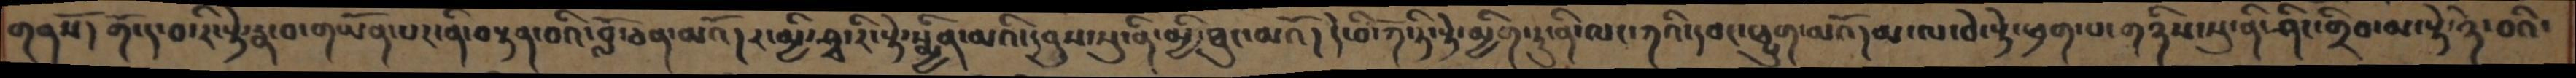གནསོ། གོ་ད་བ་རི་སྟེ་རྣ་བ་གཡོན་པར་ནི་བསྟན་བའི་བློ་ཅན་མའོ།ར་མྱི་ཤྭ་རི་སྟེ་སྨྱིན་མའི་དབུས་སུ་ནི་མྱི་ཐུང་མའོ། དེ་བི་ཀོ་ཏི་སྟེ་མྱིག་ཏུ་ནི་ལང་ཀའི་དབང་ཕྱུག་མའོ།མ་ལ་བེ་སྟེ་ཕྲག་པ་གཉིས་སུ་ནི་ཤིང་གྲིབ་མ་སྟེ་ཉེ་བའི་
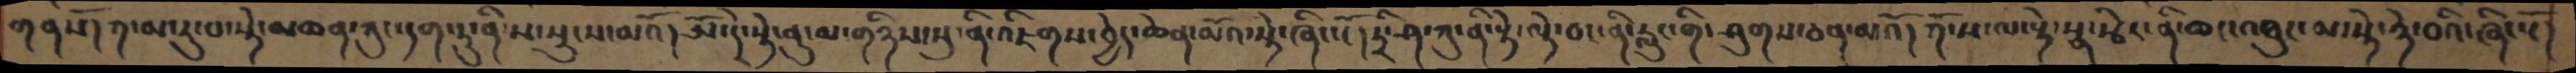གནསོ། ཀ་མ་རུ་པ་སྟེ་མཆན་ཀུང་དག་ཏུ་ནི་ས་སྲུངས་མའོ།ཨོ་དེ་སྟེ་ནུ་མ་གཉིས་སུ་ནི་འཇིགས་བྱེད་ཆེན་མོའ་སྟེ་ཞིང་ངོ། ཏྲི་ཤ་ཀུ་ནི་སྟེ་ལྟེ་བང་ནི་རླུང་གི་ཤུགས་ཅན་མའོ། ཀོ་ས་ལ་སྟེ་སྣ་རྩེར་ནི་ཆངའཐུང་མ་སྟེ་ཉེ་བའི་ཞིངསོ།
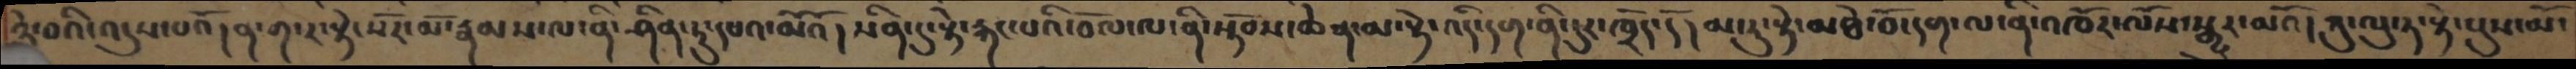ཉེ་བའི་འདུས་པའོ། ན་ག་ར་སྟེ་སོར་མོ་རྣམས་ལ་ནི་ཤིན་ཏུ་དཔའ་མོའོ། སིན་དུ་སྟེ་རྐང་པའི་བོལ་ལ་ནི་སྟོབས་ཆེན་མ་སྟེ་འདི་དག་ནི་དུར་ཁྲོད་དོ། །མ་རུ་སྟེ་མཐེ་བོ་དག་ལ་ནི་འཁོར་ལོས་སྒྱུར་མའོ། ཀུ་ལུ་ཏ་སྟེ་པུས་མོ་
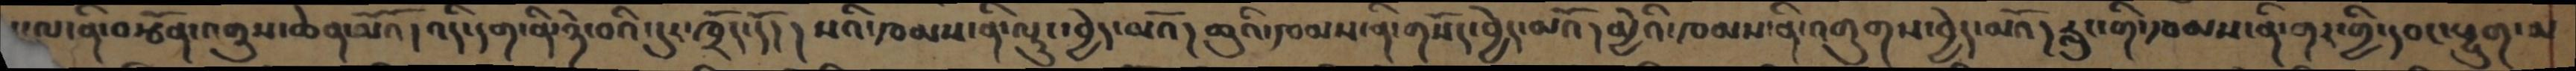ང་ལ་ནི་བརྩོན་འགྲུས་ཆེན་མོའོ། འདི་དག་ནི་ཉེ་བའི་དུར་ཁྲོད་དོ། །སའི་ཁམས་ནི་ལྟུང་བྱེད་མའོ། ཆུའི་ཁམས་ནི་གསོད་བྱེད་མའོ། མྱེའི་ཁམས་ནི་འགུགས་བྱེད་མའོ། རླུང་གི་ཁམས་ནི་གར་གྱི་དབང་ཕྱུག་མ
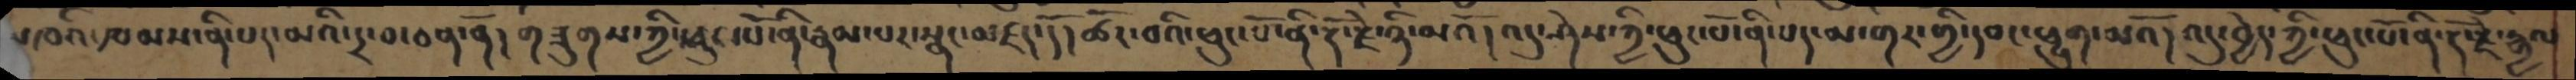མཁའི་ཁམས་ནི་པད་མའི་དྲ་བ་ཅན་ནོ། གཟུགས་ཀྱི་ཕུང་པོ་ནི་རྣམ་པར་སྣང་མཛད་དོ། ཚོར་བའི་ཕུང་པོ་ནི་རྡོ་རྗེ་ཉི་མའོ། འདུ་ཤེས་ཀྱི་ཕུང་པོ་ནི་པད་མ་གར་གྱི་དབང་ཕྱུག་མའོ། འདུ་བྱེད་ཀྱི་ཕུང་པོ་ནི་རྡོ་རྗེ་རྒྱལ
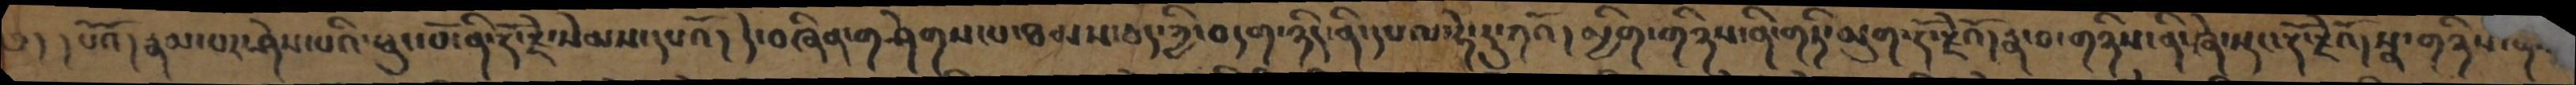༄། ། པོའོ། རྣམ་པར་ཤེས་པའི་ཕུང་པོ་ནི་རྡོ་རྗེ་སེམས་དཔའོ། དེ་བཞིན་གཤེགས་པ་ཐམས་ཅད་ཀྱི་བདག་ཉིད་ནི་དཔལ་ཧེ་རུ་ཀའོ། མྱིག་གཉིས་ནི་གཏི་མུག་རྡོ་རྗེའོ། རྣ་བ་གཉིས་ནི་ཞེ་སྡང་རྡོ་རྗེའོ། སྣ་གཉིས་ནི་
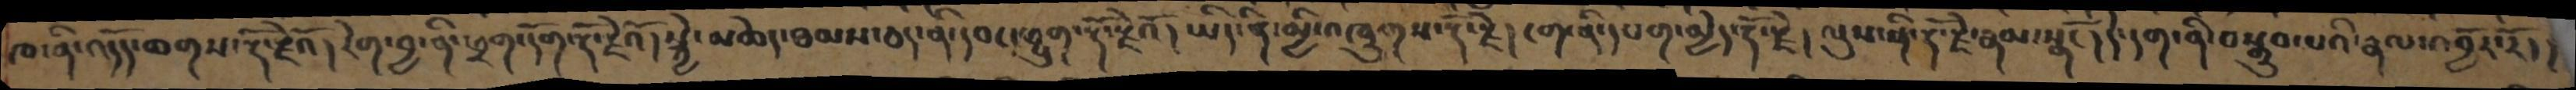ཁ་ནི་འདོད་ཆགས་རྡོ་རྗེའོ། རེག་བྱ་ནི་ཕྲག་དོག་རྡོ་རྗེའོ། སྐྱེ་མཆེད་ཐམས་ཅད་ནི་དབང་ཕྱུག་རྡོ་རྗེའོ། ཡིད་ནི་མྱི་འཁྲུགས་རྡོ་རྗེ། ངག་ནི་དཔག་མྱེད་རྡོ་རྗེ། ལུས་ནི་རྡོ་རྗེ་རྣམ་སྣངོ། དེ་དག་ནི་བསྒྲུབ་པའི་རྣལ་འབྱོར་རོ། །
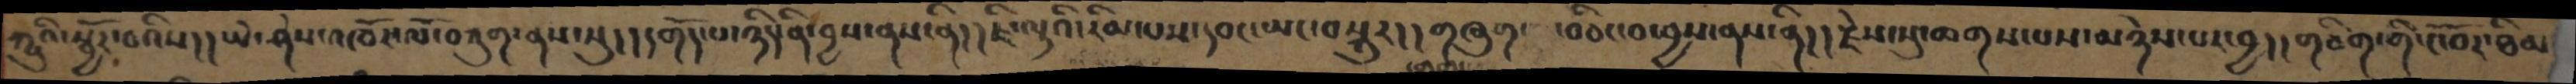ཀྱུའི་སྦྱོར་བའིས།། ཡེ་ཤེས་འཁོར་ལོ་བཀུག་ནས་སུ།།དགོད་པ་ཉིད་ནི་བྱས་ནས་ནི།། ཇི་ལྟའི་རིམ་པས་དབང་ཡང་བསྐུར།། གཞུག་ ་བཅིང་བ་བྱས་ནས་ནི།། རྗེས་སུ་ཆགས་པས་མཉེས་པར་བྱ།། གཅིག་གི་ངོ་བོར་ཐིམ
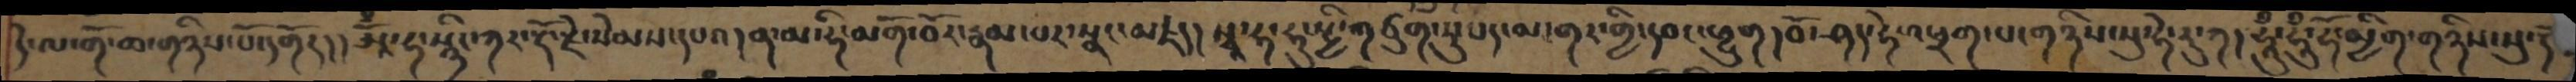དེ་ལ་གོ་ཆ་གཉིས་པོ་དགོད།།ཨཱོྃ་ཧཱ་སྙིང་ཀར་རྡོ་རྗེ་སེམས་དཔའ །ན་མ་ཧི་མགོ་བོར་རྣམ་པར་སྣང་མཛད། སྭཱ་ཧ་ཧུ་སྤྱི་གཙུག་ཏུ་པད་མ་གར་གྱི་དབང་ཕྱུག།བོ་ཤད་ཧེ་འཕྲག་པ་གཉིས་སུ་ཧེ་རུ་ཀ། ཧཱུཾ་ཧཱུཾ་ཧོ་མྱིག་གཉིས་སུ་དེ
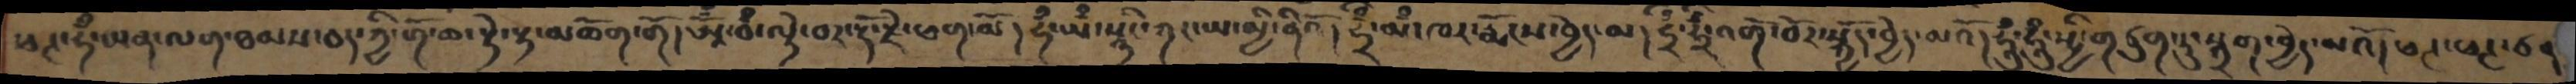ཕཊ་ཧྃ་ཡན་ལག་ཐམས་ཅད་ཀྱི་གོ་ཆ་སྟེ་རྟ་མཆོག་གོ།ཨཱོྃ་བྃ་ལྟེ་བར་་རྡོ་རྗེ་ཕག་མོ ། ཧྃ་ཡྃ་སྙིང་ཀར་ཡ་མྱི་ནིའོ །ཧྲྃ་མྃ་ཁར་རྨོངས་བྱེད་མ། ཧྲྃ་ཧྲྃ་འགོ་བོར་སྐྱོད་བྱེད་མའོ།ཧཱུྃ་ཧཱུྃ་སྤྱི་གཙུག་ཏུ་སྐྲག་བྱེད་མའོ།ཕཊ་ཕཊ་ཙན
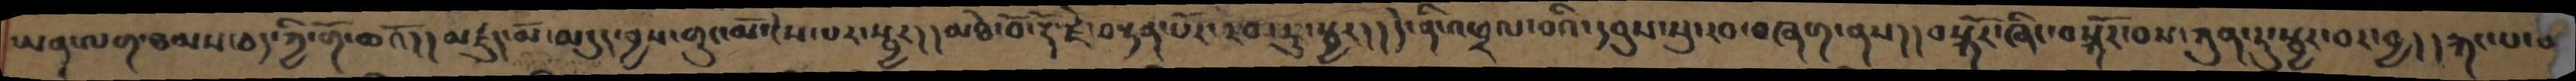ཡན་ལག་ཐམས་ཅད་ཀྱི་གོ་ཆའོ།།མཛུད་མོ་མདུད་བྱས་གུང་མོའིས་པར་སྦྱར། །མཐེ་བོ་རྡོ་རྗེ་བསྟན་པོར་རབ་ཏུ་སྦྱར། །དེ་ནི་འཕྲལ་བའི་དབུས་སུ་རབ་བཞག་ནས།།བསྐོར་ཞིང་བསྐོར་བས་ཀུན་ཏུ་སྦྱར་བར་བྱ། །རྐང་པ་ན
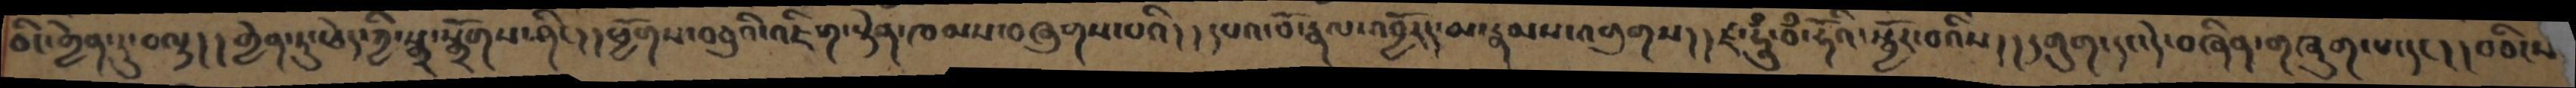ཅིང་གྱེན་བལྟ། །གྱེན་ཏུ་ཕེད་ཀྱི་སྒྲ་སྒྲོགས་ཤིང། །ཕྱོགས་བཅུའི་འཇིག་རྟེན་ཁམས་བཞུགས་པའི། །དཔའ་བོ་རྣལ་འབྱོརད་མ་རྣམས་འགུགས། །ཛ་ཧཱུྃ་བྃ་ཧོའི་སྦྱོར་བའིས། ། དགུག་དང་དེ་བཞིན་གཞུག་པ་དང ། །བཅིངས
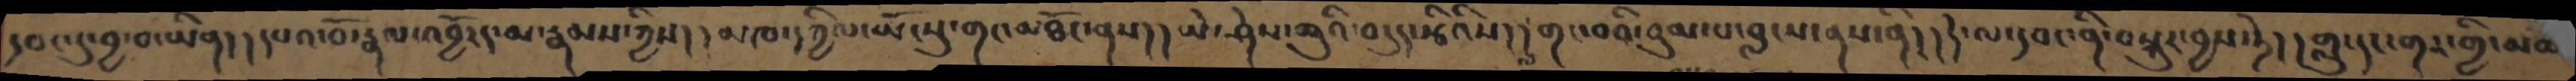དབང་དུ་བྱ་བ་ཡིན།། དཔའ་བོ་རྣལ་འབྱོརད་མ་རྣམས་ཀྱིས། །མཁ་དཀྱིལ་ཡོངསུ་གང་མཐོང་ནས།། ཡེ་ཤེས་ཆུའི་བདུད་རྩིའིས།། གང་བའི་བུམ་པ་བླངས་ནས་ནི།། དེ་ལ་དབང་ནི་བསྐུར་བྱས་ཏེ།།  གླུ་དང་གར་གྱི་མཆོད
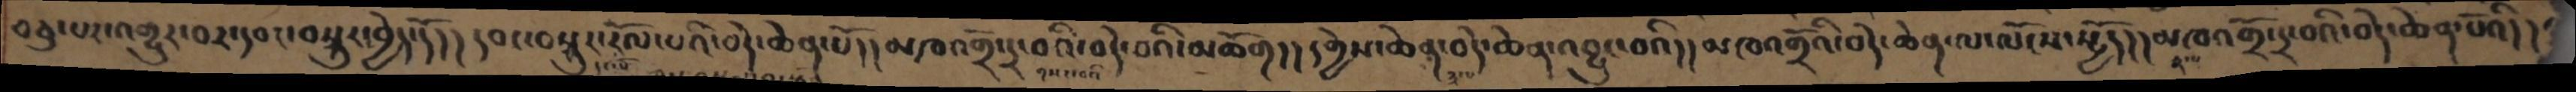བཅུ་པར་འགྱུར་བར་དབང་བསྐུར་བྱེད་དོ།། དབང་བསྐུར་རོལ་པའི་བདེ་ཆེན་པོ།། མཁའགྲོ་དྲ་བའི་བདེ་བའི་མཆོག།། དགྱེས་ཆེན་བདེ་ཆེན་འབྱུང་བའི།། མཁའགྲོའི་བདེ་ཆེན་ལ་ལོངས་སྤྱོད།། མཁའགྲོ་དྲ་བའི་བདེ་ཆེན་པོའི།།
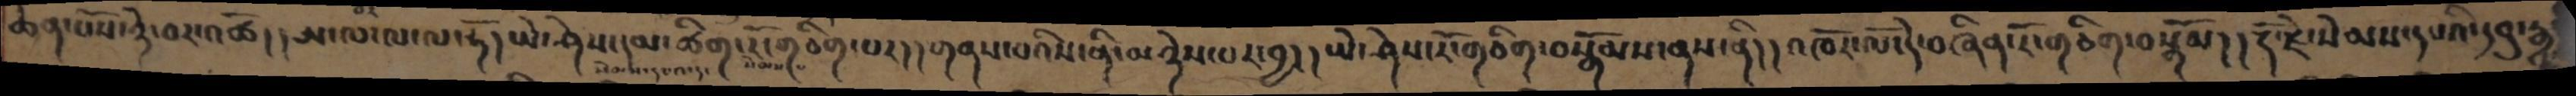ཆེན་པོས་ཉེ་བར་འཚོ།། ཨ་ལ་ལ་ལ་ཧོ། ཡེ་ཤེས་དམ་ཚིག་རོ་གཅིག་པར།། གནས་པའིས་ནི་མཉེས་པར་བྱ།། ཡེ་ཤེས་རོ་གཅིག་བསྒོམས་ནས་ནི།། འཁོར་ལོ་དེ་བཞིན་རོ་གཅིག་བསྒོམ།། རྡོ་རྗེ་སེམས་དཔའི་དབུ་རྒྱ
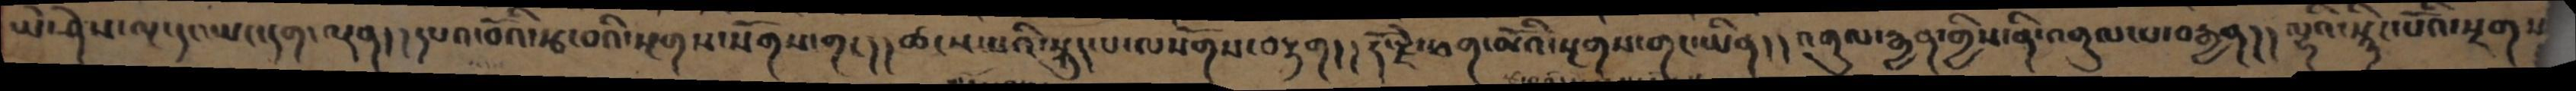ཡེ་ཤེས་ལྔ་དང་ཡང་དག་ལྡན། །དཔའ་བོའི་རྩ་བའི་སྔགས་སོགས་གང། །ཚངས་པའི་སྐུད་པ་ལསོགས་བརྟག། །རྡོ་རྗེ་ཕག་མོའི་སྔགས་གང་ཡིན། །འགུལ་རྒྱན་གྱིས་ནི་འགུལ་པ་བརྒྱན། །ལྷའི་སྙིང་པོའི་སྔགས
